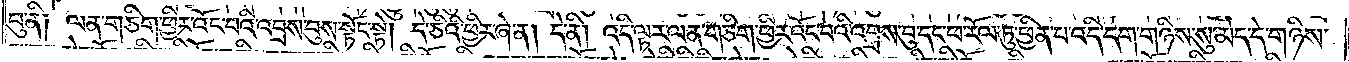བུ་ནི༑ ལན་གཅིག་ཕྱིར་འོང་བའི་འབྲས་བུས་སྟོང་སྟེ། དེ་ཅིའི་ཕྱིར་ཞེ་ན། དེ་ནི། འདི་ལྟར་ལན་གཅིག་ཕྱིར་འོང་བའི་འབྲས་བུ་དང་ཕ་རོལ་ཏུ་ཕྱིན་པ་འདི་དག་གཉིས་སུ་མེད་དེ་གཉིས་
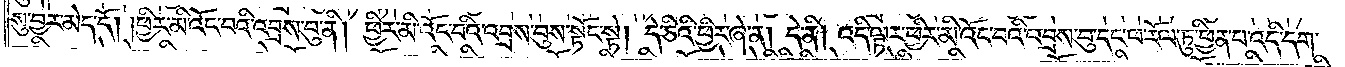སུ་བྱར་མེད་དོ། །ཕྱིར་མི་འོང་བའི་འབྲས་བུ་ནི། ཕྱིར་མི་འོང་བའི་འབྲས་བུས་སྟོང་སྟེ། དེ་ཅིའི་ཕྱིར་ཞེ་ན། དེ་ནི། འདི་ལྟར་ཕྱིར་མི་འོང་བའི་འབྲས་བུ་དང་ཕ་རོལ་ཏུ་ཕྱིན་པ་འདི་དག་
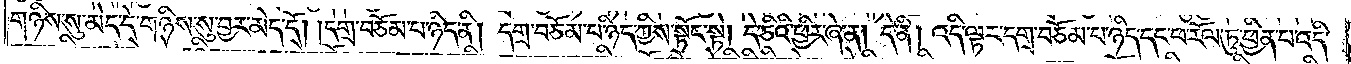གཉིས་སུ་མེད་དེ་གཉིས་སུ་བྱར་མེད་དོ། །དགྲ་བཅོམ་པ་ཉིད་ནི། དགྲ་བཅོམ་པ་ཉིད་ཀྱིས་སྟོང་སྟེ། དེ་ཅིའི་ཕྱིར་ཞེ་ན། དེ་ནི། འདི་ལྟར་དགྲ་བཅོམ་པ་ཉིད་དང་ཕ་རོལ་ཏུ་ཕྱིན་པ་འདི་
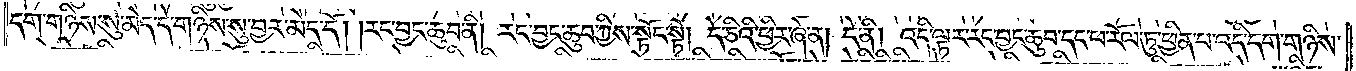དག་གཉིས་སུ་མེད་དེ་གཉིས་སུ་བྱར་མེད་དོ། །རང་བྱང་ཆུབ་ནི། རང་བྱང་ཆུབ་ཀྱིས་སྟོང་སྟེ། དེ་ཅིའི་ཕྱིར་ཞེ་ན། དེ་ནི། འདི་ལྟར་རང་བྱང་ཆུབ་དང་ཕ་རོལ་ཏུ་ཕྱིན་པ་འདི་དག་གཉིས་
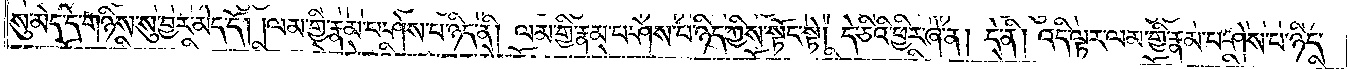སུ་མེད་དེ་གཉིས་སུ་བྱར་མེད་དོ། །ལམ་གྱི་རྣམ་པ་ཤེས་པ་ཉིད་ནི། ལམ་གྱི་རྣམ་པ་ཤེས་པ་ཉིད་ཀྱིས་སྟོང་སྟེ། དེ་ཅིའི་ཕྱིར་ཞེ་ན། དེ་ནི། འདི་ལྟར་ལམ་གྱི་རྣམ་པ་ཤེས་པ་ཉིད་
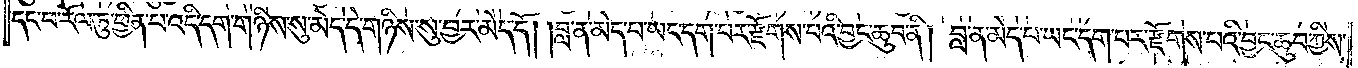དང་ཕ་རོལ་ཏུ་ཕྱིན་པ་འདི་དག་གཉིས་སུ་མེད་དེ་གཉིས་སུ་བྱར་མེད་དོ། །བླ་ན་མེད་པ་ཡང་དག་པར་རྫོགས་པའི་བྱང་ཆུབ་ནི། བླ་ན་མེད་པ་ཡང་དག་པར་རྫོགས་པའི་བྱང་ཆུབ་ཀྱིས་
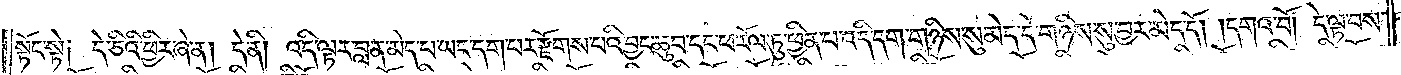སྟོང་སྟེ༑ དེ་ཅིའི་ཕྱིར་ཞེ་ན། དེ་ནི། འདི་ལྟར་བླ་ན་མེད་པ་ཡང་དག་པར་རྫོགས་པའི་བྱང་ཆུབ་དང་ཕ་རོལ་ཏུ་ཕྱིན་པ་འདི་དག་གཉིས་སུ་མེད་དེ་གཉིས་སུ་བྱར་མེད་དོ། །དགའ་བོ། དེ་ལྟ་བས་
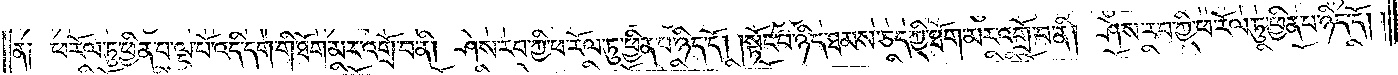ན༑ ཕ་རོལ་ཏུ་ཕྱིན་པ་ལྔ་པོ་འདི་དག་གི་ཐོག་མར་འགྲོ་བ་ནི། ཤེས་རབ་ཀྱི་ཕ་རོལ་ཏུ་ཕྱིན་པ་ཉིད་དོ། སྟོང་པ་ཉིད་ཐམས་ཅད་ཀྱི་ཐོག་མར་འགྲོ་བ་ནི། ཤེས་རབ་ཀྱི་ཕ་རོལ་ཏུ་ཕྱིན་པ་ཉིད་དོ། །
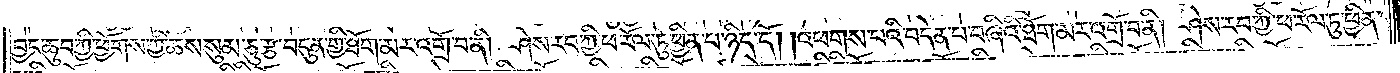བྱང་ཆུབ་ཀྱི་ཕྱོགས་ཀྱི་ཆོས་སུམ་ཅུ་རྩ་བདུན་གྱི་ཐོག་མར་འགྲོ་བ་ནི། ཤེས་རབ་ཀྱི་ཕ་རོལ་ཏུ་ཕྱིན་པ་ཉིད་དོ། །འཕགས་པའི་བདེན་པ་བཞིའི་ཐོག་མར་འགྲོ་བ་ནི། ཤེས་རབ་ཀྱི་ཕ་རོལ་ཏུ་ཕྱིན་
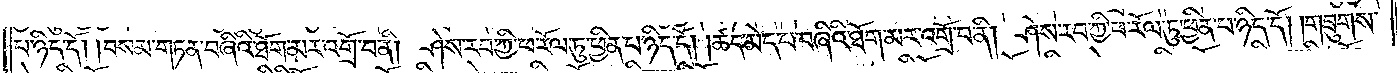པ་ཉིད་དོ། །བསམ་གཏན་བཞིའི་ཐོག་མར་འགྲོ་བ་ནི། ཤེས་རབ་ཀྱི་ཕ་རོལ་ཏུ་ཕྱིན་པ་ཉིད་དོ། །ཚད་མེད་པ་བཞིའི་ཐོག་མར་འགྲོ་བ་ནི། ཤེས་རབ་ཀྱི་ཕ་རོལ་ཏུ་ཕྱིན་པ་ཉིད་དོ། །གཟུགས་
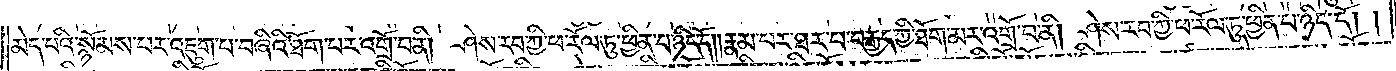མེད་པའི་སྙོམས་པར་འཇུག་པ་བཞིའི་ཐོག་མར་འགྲོ་བ་ནི། ཤེས་རབ་ཀྱི་ཕ་རོལ་ཏུ་ཕྱིན་པ་ཉིད་དོ། །རྣམ་པར་ཐར་པ་བརྒྱད་ཀྱི་ཐོག་མར་འགྲོ་བ་ནི། ཤེས་རབ་ཀྱི་ཕ་རོལ་ཏུ་ཕྱིན་པ་ཉིད་དོ། །
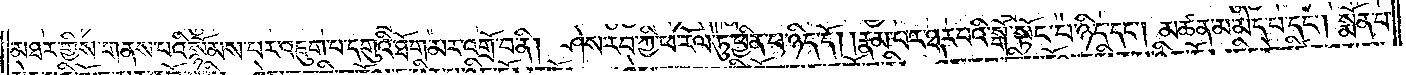མཐར་གྱིས་གནས་པའི་སྙོམས་པར་འཇུག་པ་དགུའི་ཐོག་མར་འགྲོ་བ་ནི། ཤེས་རབ་ཀྱི་ཕ་རོལ་ཏུ་ཕྱིན་པ་ཉིད་དོ། །རྣམ་པར་ཐར་པའི་སྒོ་སྟོང་པ་ཉིད་དང༌། མཚན་མ་མེད་པ་དང༌། སྨོན་པ་
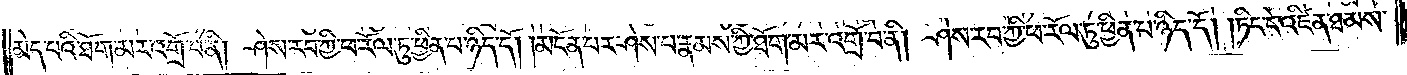མེད་པའི་ཐོག་མར་འགྲོ་བ་ནི། ཤེས་རབ་ཀྱི་ཕ་རོལ་ཏུ་ཕྱིན་པ་ཉིད་དོ། །མངོན་པར་ཤེས་པ་རྣམས་ཀྱི་ཐོག་མར་འགྲོ་བ་ནི། ཤེས་རབ་ཀྱི་ཕ་རོལ་ཏུ་ཕྱིན་པ་ཉིད་དོ། །ཏིང་ངེ་འཛིན་ཐམས་
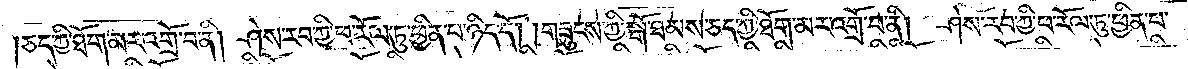ཅད་ཀྱི་ཐོག་མར་འགྲོ་བ་ནི། ཤེས་རབ་ཀྱི་ཕ་རོལ་ཏུ་ཕྱིན་པ་ཉིད་དོ། །གཟུངས་ཀྱི་སྒོ་ཐམས་ཅད་ཀྱི་ཐོག་མར་འགྲོ་བ་ནི། ཤེས་རབ་ཀྱི་ཕ་རོལ་ཏུ་ཕྱིན་པ་
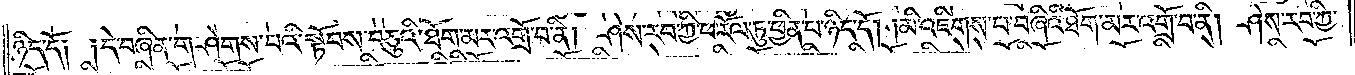ཉིད་དོ། །དེ་བཞིན་གཤེགས་པའི་སྟོབས་བཅུའི་ཐོག་མར་འགྲོ་བ་ནི། ཤེས་རབ་ཀྱི་ཕ་རོལ་ཏུ་ཕྱིན་པ་ཉིད་དོ། །མི་འཇིགས་པ་བཞིའི་ཐོག་མར་འགྲོ་བ་ནི། ཤེས་རབ་ཀྱི་
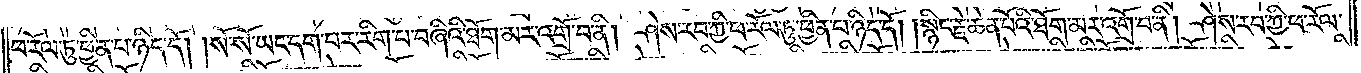ཕ་རོལ་ཏུ་ཕྱིན་པ་ཉིད་དོ། །སོ་སོ་ཡང་དག་པར་རིག་པ་བཞིའི་ཐོག་མར་འགྲོ་བ་ནི། ཤེས་རབ་ཀྱི་ཕ་རོལ་ཏུ་ཕྱིན་པ་ཉིད་དོ། །སྙིང་རྗེ་ཆེན་པོའི་ཐོག་མར་འགྲོ་བ་ནི། ཤེས་རབ་ཀྱི་ཕ་རོལ་
